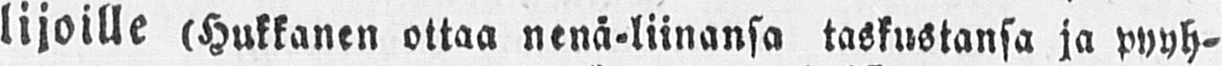lijoille (Hukkanen ottaa nenä-liinansa taskustansa ja pyyh-
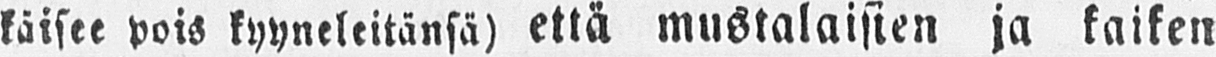käisee pois kyyneleitänsä) että mustalaisien ja kaiken
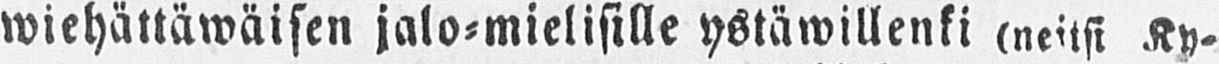wiehättäwäisen jalo-mielisille ystäwillenki (neitsi Ky-
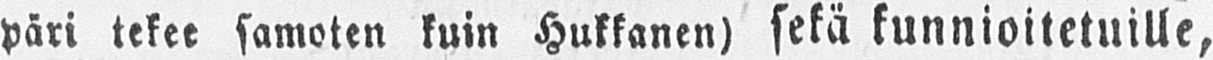päri tekee samoten kuin Hukkanen) sekä kunnioitetuille,
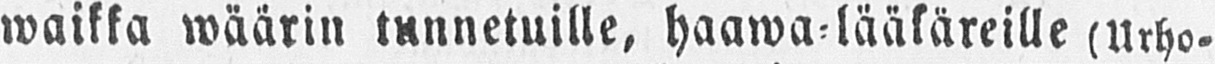waikka wäärin tunnetuille, haawa-lääkäreille (Urho-
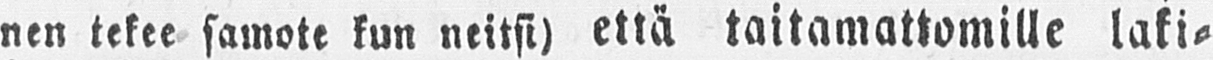nen tekee samote kun neitsi) että taitamattomille laki-
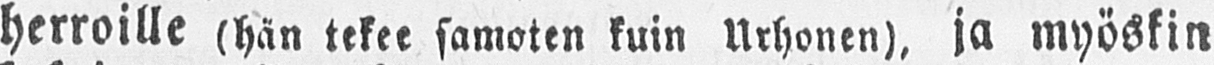herroille (hän tekee samoten kuin Urhonen), ja myöskin
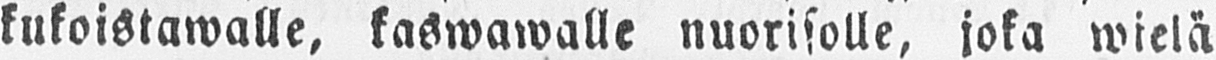kukoistawalle, taswawalle nuorisolle, joka wielä
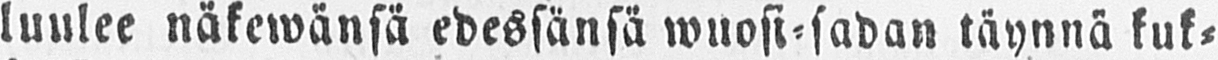luulee näkewänsä edessänsä wuosi-sadan täynnä kuk-
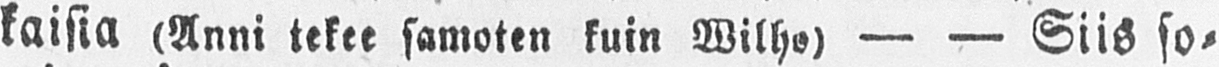kaisia (Anni tekee samoten kuin Wilho) — — Siis so-
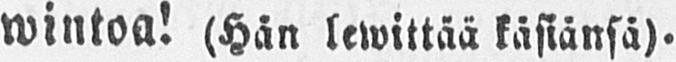wintoa! (Hän lewittää käsiänsä).
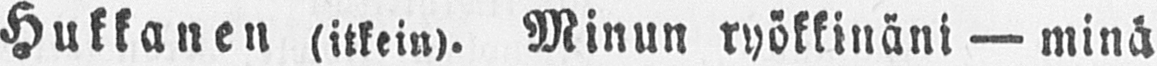Hukkanen (itkein). Minun ryökkinäni — minä
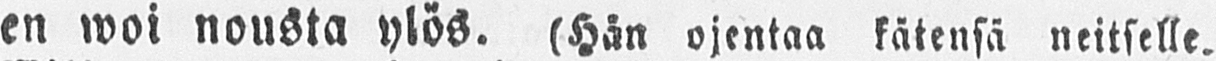en woi nousta ylös. (Hän ojentaa kätensä neitselle.
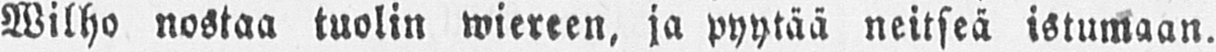Wilho nostaa tuolin wiereen, ja pyytää neitseä istumaan.
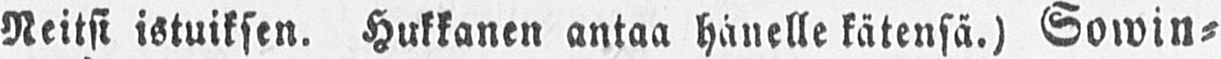Neitsi istuiksen. Hukkanen antaa hänelle kätensä.) Sowin-
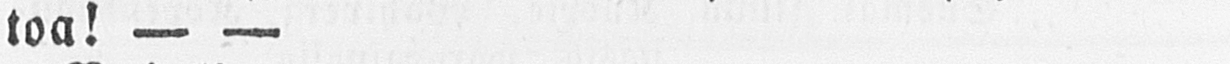toa! — —
